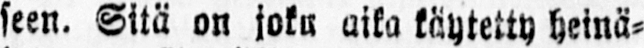seen. Sitä on joku aika käytetty heinä-
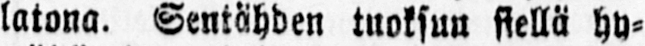latona. Sentähden tuoksun siellä hy-
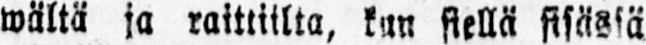wältä ja raittiilta, kun siellä fisässä
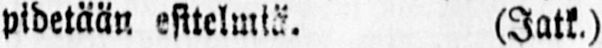pidetään esitelmiä. (Jatk.)
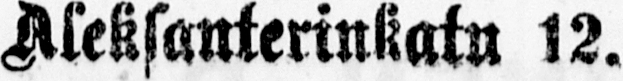Aleksanterinkatu 12.
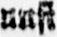uusi
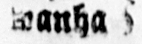wanha
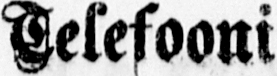Telefooni
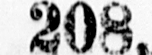208.
